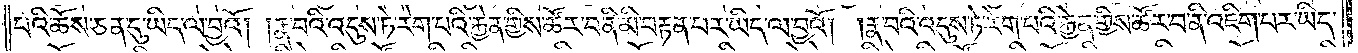པའི་ཆོས་ཅན་དུ་ཡིད་ལ་བྱའོ། །རྣ་བའི་འདུས་ཏེ་རེག་པའི་རྐྱེན་གྱིས་ཚོར་བ་ནི་མི་བརྟན་པར་ཡིད་ལ་བྱའོ། །རྣ་བའི་འདུས་ཏེ་རེག་པའི་རྐྱེན་གྱིས་ཚོར་བ་ནི་འཇིག་པར་ཡིད་
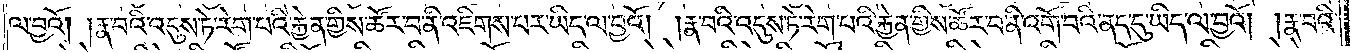ལ་བྱའོ། །རྣ་བའི་འདུས་ཏེ་རེག་པའི་རྐྱེན་གྱིས་ཚོར་བ་ནི་འཇིགས་པར་ཡིད་ལ་བྱའོ། །རྣ་བའི་འདུས་ཏེ་རེག་པའི་རྐྱེན་གྱིས་ཚོར་བ་ནི་འགོ་བའི་ནད་དུ་ཡིད་ལ་བྱའོ། །རྣ་བའི་
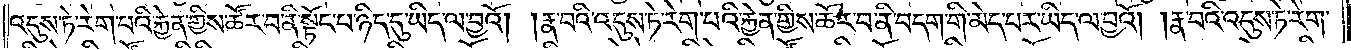འདུས་ཏེ་རེག་པའི་རྐྱེན་གྱིས་ཚོར་བ་ནི་སྟོང་པ་ཉིད་དུ་ཡིད་ལ་བྱའོ། །རྣ་བའི་འདུས་ཏེ་རེག་པའི་རྐྱེན་གྱིས་ཚོར་བ་ནི་བདག་གི་མེད་པར་ཡིད་ལ་བྱའོ། །རྣ་བའི་འདུས་ཏེ་རེག་
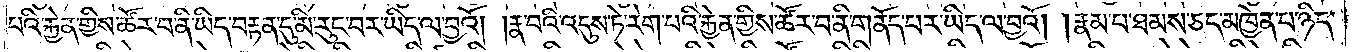པའི་རྐྱེན་གྱིས་ཚོར་བ་ནི་ཡིད་བརྟན་དུ་མི་རུང་བར་ཡིད་ལ་བྱའོ། །རྣ་བའི་འདུས་ཏེ་རེག་པའི་རྐྱེན་གྱིས་ཚོར་བ་ནི་གནོད་པར་ཡིད་ལ་བྱའོ། །རྣམ་པ་ཐམས་ཅད་མཁྱེན་པ་ཉིད་
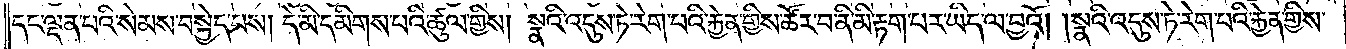དང་ལྡན་པའི་སེམས་བསྐྱེད་པས། དེ་མི་དམིགས་པའི་ཚུལ་གྱིས། སྣའི་འདུས་ཏེ་རེག་པའི་རྐྱེན་གྱིས་ཚོར་བ་ནི་མི་རྟག་པར་ཡིད་ལ་བྱའོ། །སྣའི་འདུས་ཏེ་རེག་པའི་རྐྱེན་གྱིས་
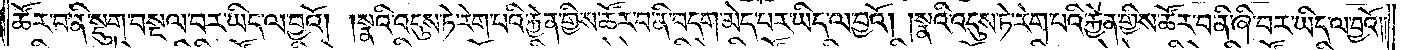ཚོར་བ་ནི་སྡུག་བསྔལ་བར་ཡིད་ལ་བྱའོ། །སྣའི་འདུས་ཏེ་རེག་པའི་རྐྱེན་གྱིས་ཚོར་བ་ནི་བདག་མེད་པར་ཡིད་ལ་བྱའོ། །སྣའི་འདུས་ཏེ་རེག་པའི་རྐྱེན་གྱིས་ཚོར་བ་ནི་ཞི་བར་ཡིད་ལ་བྱའོ། །
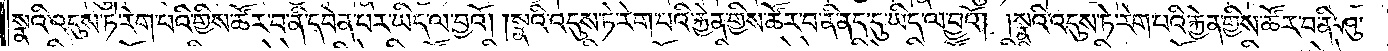སྣའི་འདུས་ཏེ་རེག་པའི་རྐྱེན་གྱིས་ཚོར་བ་ནི་དབེན་པར་ཡིད་ལ་བྱའོ། །སྣའི་འདུས་ཏེ་རེག་པའི་རྐྱེན་གྱིས་ཚོར་བ་ནི་ནད་དུ་ཡིད་ལ་བྱའོ། །སྣའི་འདུས་ཏེ་རེག་པའི་རྐྱེན་གྱིས་ཚོར་བ་ནི་ཤུ་
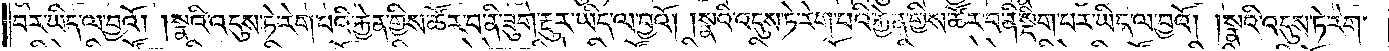བར་ཡིད་ལ་བྱའོ། །སྣའི་འདུས་ཏེ་རེག་པའི་རྐྱེན་གྱིས་ཚོར་བ་ནི་ཟུག་རྔུར་ཡིད་ལ་བྱའོ། །སྣའི་འདུས་ཏེ་རེག་པའི་རྐྱེན་གྱིས་ཚོར་བ་ནི་སྡིག་པར་ཡིད་ལ་བྱའོ། །སྣའི་འདུས་ཏེ་རེག་
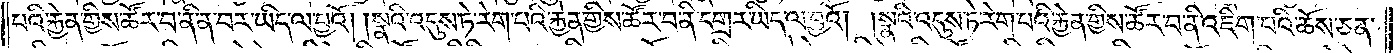པའི་རྐྱེན་གྱིས་ཚོར་བ་ནི་ན་བར་ཡིད་ལ་བྱའོ། །སྣའི་འདུས་ཏེ་རེག་པའི་རྐྱེན་གྱིས་ཚོར་བ་ནི་དགྲར་ཡིད་ལ་བྱའོ། །སྣའི་འདུས་ཏེ་རེག་པའི་རྐྱེན་གྱིས་ཚོར་བ་ནི་འཇིག་པའི་ཆོས་ཅན་
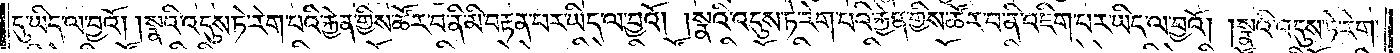དུ་ཡིད་ལ་བྱའོ། །སྣའི་འདུས་ཏེ་རེག་པའི་རྐྱེན་གྱིས་ཚོར་བ་ནི་མི་བརྟན་པར་ཡིད་ལ་བྱའོ། །སྣའི་འདུས་ཏེ་རེག་པའི་རྐྱེན་གྱིས་ཚོར་བ་ནི་འཇིག་པར་ཡིད་ལ་བྱའོ། །སྣའི་འདུས་ཏེ་རེག་
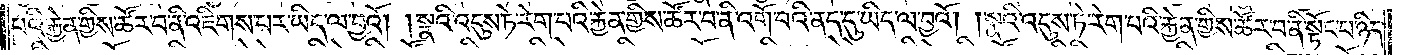པའི་རྐྱེན་གྱིས་ཚོར་བ་ནི་འཇིགས་པར་ཡིད་ལ་བྱའོ། །སྣའི་འདུས་ཏེ་རེག་པའི་རྐྱེན་གྱིས་ཚོར་བ་ནི་འགོ་བའི་ནད་དུ་ཡིད་ལ་བྱའོ། །སྣའི་འདུས་ཏེ་རེག་པའི་རྐྱེན་གྱིས་ཚོར་བ་ནི་སྟོང་པ་ཉིད་
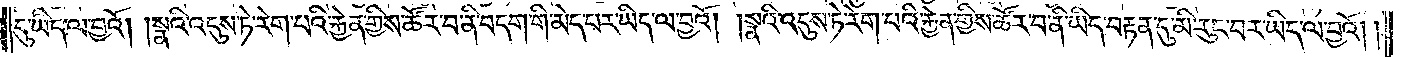དུ་ཡིད་ལ་བྱའོ། །སྣའི་འདུས་ཏེ་རེག་པའི་རྐྱེན་གྱིས་ཚོར་བ་ནི་བདག་གི་མེད་པར་ཡིད་ལ་བྱའོ། །སྣའི་འདུས་ཏེ་རེག་པའི་རྐྱེན་གྱིས་ཚོར་བ་ནི་ཡིད་བརྟན་དུ་མི་རུང་བར་ཡིད་ལ་བྱའོ། །
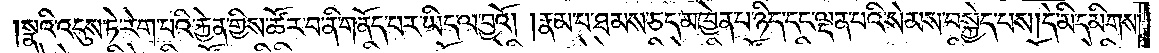སྣའི་འདུས་ཏེ་རེག་པའི་རྐྱེན་གྱིས་ཚོར་བ་ནི་གནོད་པར་ཡིད་ལ་བྱའོ། །རྣམ་པ་ཐམས་ཅད་མཁྱེན་པ་ཉིད་དང་ལྡན་པའི་སེམས་བསྐྱེད་པས། དེ་མི་དམིགས་
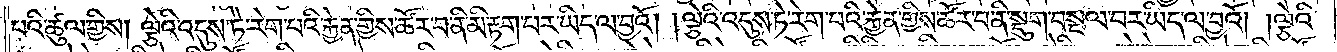པའི་ཚུལ་གྱིས། ལྕེའི་འདུས་ཏེ་རེག་པའི་རྐྱེན་གྱིས་ཚོར་བ་ནི་མི་རྟག་པར་ཡིད་ལ་བྱའོ། །ལྕེའི་འདུས་ཏེ་རེག་པའི་རྐྱེན་གྱིས་ཚོར་བ་ནི་སྡུག་བསྔལ་བར་ཡིད་ལ་བྱའོ། །ལྕེའི་
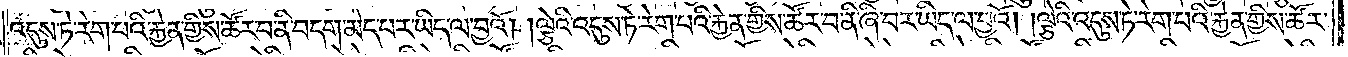འདུས་ཏེ་རེག་པའི་རྐྱེན་གྱིས་ཚོར་བ་ནི་བདག་མེད་པར་ཡིད་ལ་བྱའོ། །ལྕེའི་འདུས་ཏེ་རེག་པའི་རྐྱེན་གྱིས་ཚོར་བ་ནི་ཞི་བར་ཡིད་ལ་བྱའོ། །ལྕེའི་འདུས་ཏེ་རེག་པའི་རྐྱེན་གྱིས་ཚོར་
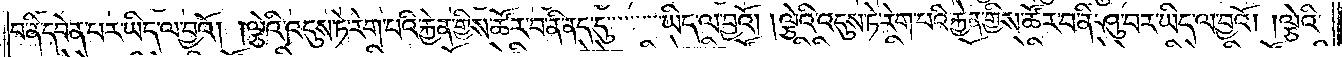བ་ནི་དབེན་པར་ཡིད་ལ་བྱའོ། །ལྕེའི་འདུས་ཏེ་རེག་པའི་རྐྱེན་གྱིས་ཚོར་བ་ནི་ནད་དུ་ཡིད་ལ་བྱའོ། །ལྕེའི་འདུས་ཏེ་རེག་པའི་རྐྱེན་གྱིས་ཚོར་བ་ནི་ཤུ་བར་ཡིད་ལ་བྱའོ། །ལྕེའི་
